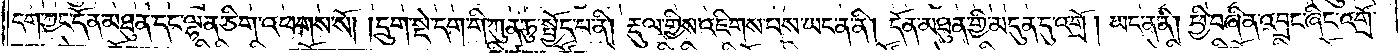དག་ཀྱང་དོན་མཐུན་དང་ལྷན་ཅིག་འཕགས་སོ། །དྲུག་སྡེ་དག་གི་ཀུན་ཏུ་སྤྱོད་པ་ནི། རྡུལ་གྱིས་འཇིགས་པས་ཡང་ན་ནི། དོན་མཐུན་གྱི་མདུན་དུ་འགྲོ། ཡང་ན་ནི། ཕྱི་བཞིན་འབྲང་ཞིང་འགྲོ་
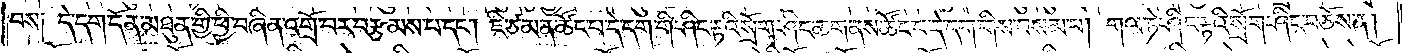བས༑ དེ་དག་དོན་མཐུན་གྱི་ཕྱི་བཞིན་འགྲོ་བར་བརྩམས་པ་དང༌། ཇི་ཙམ་ན་ཚོང་པ་དེ་དག་གི་ཤིང་རྟའི་སྲོག་ཤིང་ཆག་ནས་ཚོང་པ་དེ་དག་གིས་བསམ་པ། གལ་ཏེ་ཤིང་རྟའི་སྲོག་ཤིང་བཅོས་ན།
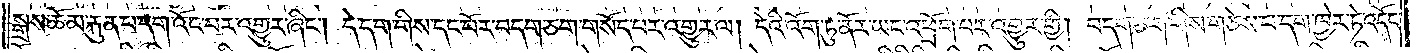སྒྲས་ཆོམ་རྐུན་པ་དག་འོང་བར་འགྱུར་ཞིང༌། དེ་དག་གིས་དང་པོར་བདག་ཅག་གསོད་པར་འགྱུར་ལ། དེའི་འོག་ཏུ་ནོར་ཡང་འཕྲོག་པར་འགྱུར་གྱི། བདག་ཅག་གིས་གཅེས་པ་དག་ཁྱེར་ཏེ་འདོང་
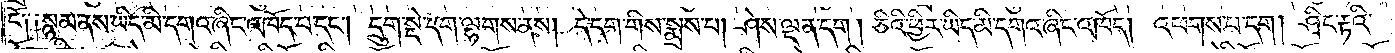ངོ༑ ༑སྙམ་ནས་ཡིད་མི་དགའ་ཞིང་འཁོད་པ་དང༌། དྲུག་སྡེ་དག་ལྷགས་ནས། དེ་དག་གིས་སྨྲས་པ། ཤེས་ལྡན་དག། ཅིའི་ཕྱིར་ཡིད་མི་དགའ་ཞིང་འཁོད། འཕགས་པ་དག། ཤིང་རྟའི་
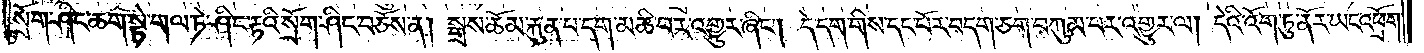སྲོག་ཤིང་ཆག་སྟེ་གལ་ཏེ་ཤིང་རྟའི་སྲོག་ཤིང་བཅོས་ན། སྒྲས་ཆོམ་རྐུན་པ་དག་མཆི་བར་འགྱུར་ཞིང༌། དེ་དག་གིས་དང་པོར་བདག་ཅག་བཀུམ་པར་འགྱུར་ལ། དེའི་འོག་ཏུ་ནོར་ཡང་འཕྲོག་
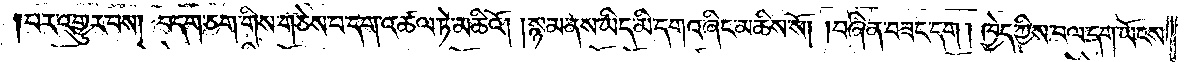བར་འགྱུར་བས། བདག་ཅག་གིས་གཅེས་པ་དག་འཆལ་ཏེ་མཆིའོ། །སྙམ་ནས་ཡིད་མི་དགའ་ཞིང་མཆིས་སོ། །བཞིན་བཟང་དག། ཁྱེད་ཀྱིས་བལ་དག་ཡོངས་
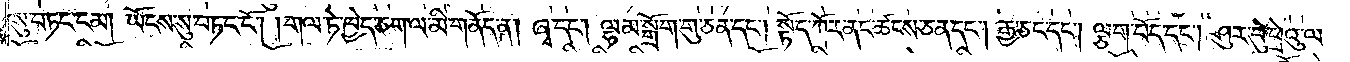སུ་བཏང་ངམ། ཡོངས་སུ་བཏང་ངོ༌། །གལ་ཏེ་ཁྱེད་ཅག་ལ་མི་གནོད་ན། ཞྭ་དང༌། ལྷམ་སྒྲེག་གུ་ཅན་དང༌། སྟོད་ཀོར་ནང་ཚངས་ཅན་དང༌། རྒྱ་ཅང་དང༌། ལྕག་བོད་དང༌། ཤུར་བུ་ཕྲེའུ་ལ་
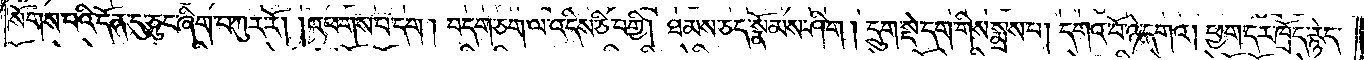སོགས་པའི་དོན་དུ་ཅུང་ཞིག་བཀུར་རོ། །འཕགས་པ་དག། བདག་ཅག་ལ་འདིས་ཅི་བགྱི། ཐམས་ཅད་སྣོམས་ཤིག། དྲུག་སྡེ་དག་གིས་སྨྲས་པ། དགའ་བོ་ཉེ་དགའ། ཕྱག་དར་ཁྲོད་རྙེད་
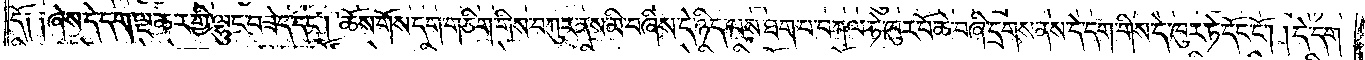དོ༑ ༑ཞེས་དེ་དག་ལྔ་ཆར་གྱི་ལྷུང་བཟེད་དང༌། ཆོས་གོས་དག་གཅིག་གིས་བཀུར་ནས་མི་བཞིས་དེ་ཉིད་ལས་ཐག་པ་བཀལ་ཏེ་ཁུར་པོ་ཆེ་བཞི་དྲགས་ནས་དེ་དག་གིས་དེ་ཁུར་ཏེ་དོང་ངོ༌། །དེ་དག་
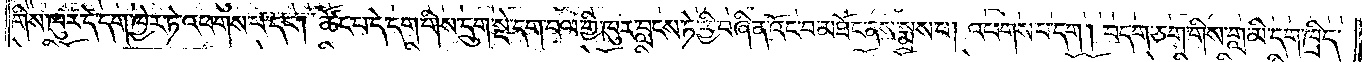གིས་ཁུར་དེ་དག་ཁྱེར་ཏེ་འཕགས་པ་དང༌། ཚོང་པ་དེ་དག་གིས་དྲུག་སྡེ་དག་བལ་གྱི་ཁུར་བླངས་ཏེ་ཕྱི་བཞིན་འོང་བ་མཐོང་ནས་སྨྲས་པ། འཕགས་པ་དག། བདག་ཅག་གིས་གླ་མི་དག་ཁྲིད་
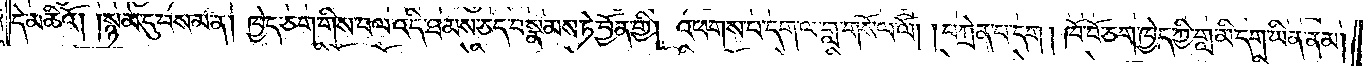དེ་མཆིའོ། །སྙམ་དུ་བསམ་ན། ཁྱེད་ཅག་གིས་བལ་འདི་ཐམས་ཅད་བསྣམས་ཏེ་བྱོན་གྱི། འཕགས་པ་དག་ལ་གླ་གསོལ་ལོ། །བཀྲེན་པ་དག། ཁོ་བོ་ཅག་ཁྱེད་ཀྱི་གླ་མི་དག་ཡིན་ནམ།
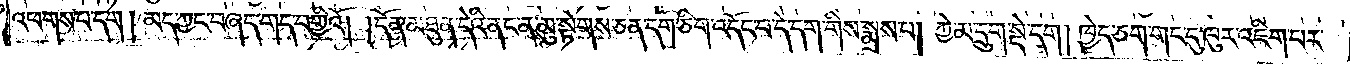འཕགས་པ་དག། མད་ཀྱང་བཞད་གད་བགྱིའོ། །དོན་མཐུན་དེའི་ནང་ན་མུ་སྟེགས་ཅན་དག་ཅིག་འདོང་བ་དེ་དག་གིས་སྨྲས་པ། ཀྱེ་མ་དྲུག་སྡེ་དག། ཁྱེད་ཅག་གང་དུ་ཁུར་འཇིག་པར་
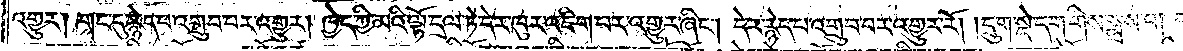འགྱུར། གང་དུ་རྙེད་པ་འགྲུབ་པར་འགྱུར། ཁྱེད་ཀྱི་མའི་ལྟོ་དྲལ་ཏེ་དེར་ཁུར་འཇིག་པར་འགྱུར་ཞིང༌། དེར་རྙེད་པ་འགྲུབ་པར་འགྱུར་རོ། །དྲུག་སྡེ་དག་གིས་སྨྲས་པ། དགའ་བོ་ཉེ་དགའ། གལ་ཏེ་དོན་
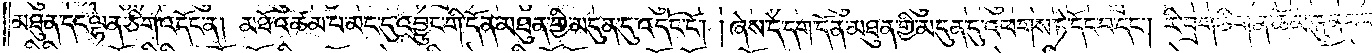མཐུན་དང་ལྷན་ཅིག་འདོང་ན། མཐོ་འཚམ་པ་མང་དུ་འབྱུང་གི་དོན་མཐུན་གྱི་མདུན་དུ་འདོང་ངོ༌། །ཞེས་དེ་དག་དོན་མཐུན་གྱི་མདུན་དུ་འཕགས་ཏེ་འདོང་བ་དང༌། རི་བྲག་ཅིག་ན་ཆོམ་རྐུན་པ་གཅད་
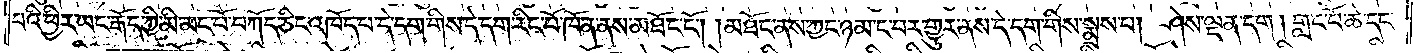པའི་ཕྱིར་ཡང་རྒོད་ཀྱི་མི་མང་པོ་བཀོད་ཅིང་འཁོད་པ་དེ་དག་གིས་དེ་དག་རིང་པོ་ཁོ་ན་ནས་མཐོང་ངོ༌། །མཐོང་ནས་ཀྱང་ཉམ་ང་བར་གྱུར་ནས་དེ་དག་གིས་སྨྲས་པ། ཤེས་ལྡན་དག། གླང་པོ་ཆེ་དང་
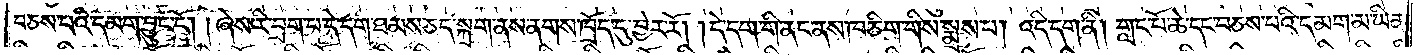བཅས་པའི་དམག་བྱུང་ངོ༌། །ཞེས་རི་བྲག་པ་དེ་དག་ཐམས་ཅད་སྐྲག་ནས་ནགས་ཁྲོད་དུ་བྱེར་རོ། །དེ་དག་གི་ནང་ནས་ཁ་ཅིག་གིས་སྨྲས་པ། འདི་དག་ནི། གླང་པོ་ཆེ་དང་བཅས་པའི་དམག་མ་ཡིན་
